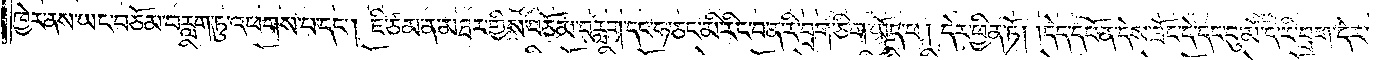ཁྱེར་ནས་ཡང་བཅོམ་བརླག་ཏུ་འཕགས་པ་དང༌། ཇི་ཙམ་ན་མཐར་གྱིས་བཅོམ་བརླག་དང་ཧ་ཅང་མི་རིང་བ་ན་རི་བྲག་ཅིག་ཡོད་པ། དེར་ཕྱིན་ཏོ། །དེད་དཔོན་དེས་ཟོང་དེ་དང་བུ་མོ་དེ་རི་བྲག་དེར་
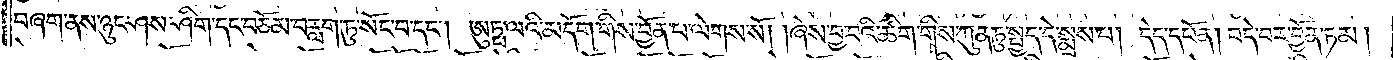བཞག་ནས་ཉུང་ཤས་ཤིག་དང་བཅོམ་བརླག་ཏུ་སོང་བ་དང༌། ཨུཏྤ་ལའི་མདོག་གིས་བྱོན་པ་ལེགས་སོ། །ཞེས་བྱ་བའི་ཚིག་གིས་ཀུན་ཏུ་སྤྱད་དེ་སྨྲས་པ། དེད་དཔོན། བདེ་བར་བྱོན་ཏམ།
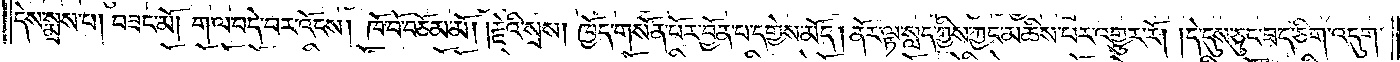དེས་སྨྲས་པ། བཟང་མོ། ག་ལ་བདེ་བར་འོངས། ཁོ་བོ་བཅོམ་མོ། །རྗེའི་སྲས། ཁྱོད་གསོན་པོར་བྱོན་པ་དགྱེས་མོད། ནོར་ལྟ་སླད་ཀྱིས་ཀྱང་མཆིས་པར་འགྱུར་རོ། །དེ་དུས་ཅུང་ཟད་ཅིག་འདུག་
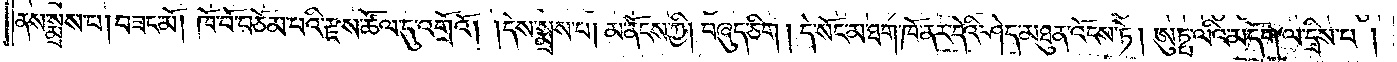ནས་སྨྲས་པ། བཟང་མོ། ཁོ་བོ་བཅོམ་པའི་རྫས་ཚོལ་དུ་འགྲོའོ། །དེས་སྨྲས་པ། མ་ནོངས་ཀྱི། བཞུད་ཅིག ། དེ་སོང་མ་ཐག་ཁོ་ནར་དེའི་ཤེད་མཐུན་འོངས་ཏེ། ཨུཏྤ་ལའི་མདོག་ལ་དྲིས་པ །
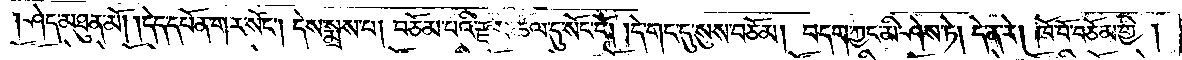།ཤད་མཐུན་མོ། །དེད་དཔོན་གར་སོང༌། དེས་སྨྲས་པ། བཅོམ་པའི་རྫས་ཚོལ་དུ་སོང་ངོ༌། །དེ་གང་དུ་སུས་བཅོམ། བདག་ཀྱང་མི་ཤེས་ཏེ། དེ་ན་རེ། ཁོ་བོ་བཅོམ་གྱི།
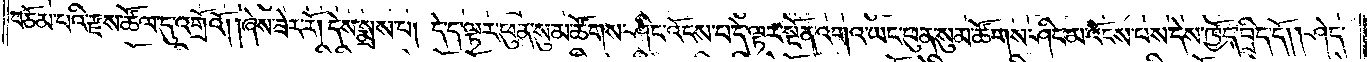བཅོམ་པའི་རྫས་ཚོལ་དུ་འགྲོའོ། །ཞེས་ཟེར་རོ། །དེས་སྨྲས་པ། དེ་ད་ལྟར་ཕུན་སུམ་ཚོགས་ཤིང་འོངས་པ་དེ་ལྟར་སྔོན་འགའ་ཡང་ཕུན་སུམ་ཚོགས་ཤིང་མ་འོངས་པས་དེས་ཁྱོད་བྲིད་དོ། །ཤེད་
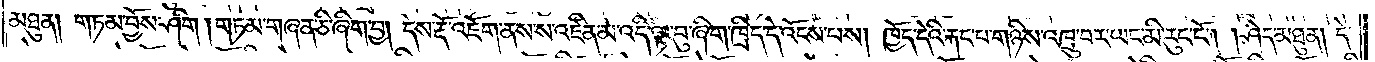མཐུན། གཏམ་བྱོས་ཤིག །གཏམ་གཞན་ཅི་ཞིག་བྱ། དེས་རྡོ་འཇོག་ནས་ས་འཛིན་མ་འདི་ལྟ་བུ་ཞིག་ཁྲིད་དེ་འོངས་པས། ཁྱོད་དེའི་རྐང་པ་གཉིས་འཁྲུ་བར་ཡང་མི་རུང་ངོ༌། །ཤེད་མཐུན། དེ་
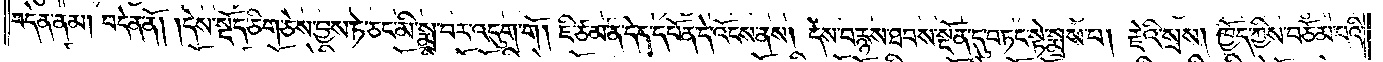བདེན་ནམ། བདེན་ནོ། །དེས་སྡོད་ཅིག་ཅེས་བྱས་ཏེ་ཅང་མི་སྨྲ་བར་འདུག་གོ །ཇི་ཙམ་ན་དེད་དཔོན་དེ་འོངས་ནས། དེས་བརྙས་ཐབས་སྔོན་དུ་བཏང་སྟེ་སྨྲས་པ། རྗེའི་སྲས། ཁྱོད་ཀྱིས་བཅོམ་པའི་
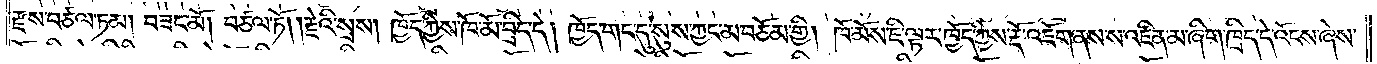རྫས་བཙལ་ཏམ། བཟང་མོ། །བཙལ་ཏོ། །རྗེའི་སྲས། ཁྱོད་ཀྱིས་ཁོ་མོ་བྲིད་དེ། ཁྱོད་གང་དུ་སུས་ཀྱང་མ་བཅོམ་གྱི། ཁོ་མོས་ཇི་ལྟར་ཁྱོད་ཀྱིས་རྡོ་འཇོག་ནས་ས་འཛིན་མ་ཞིག་ཁྲིད་དེ་འོངས་ཞེས་
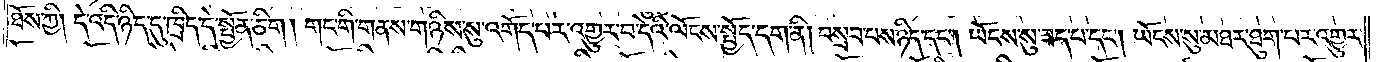ཐོས་ཀྱི། དེ་འདི་ཉིད་དུ་ཁྲིད་དེ་སྤྱོན་ཅིག །གང་གི་གནས་གཉིས་སུ་འགོད་པར་འགྱུར་བ་དེའི་ལོངས་སྤྱོད་དག་ནི། བསྲབ་པས་ཉིད་དང༌། ཡོངས་སུ་ཟད་པ་དང༌། ཡོངས་སུ་མཐར་ཐུག་པར་འགྱུར་
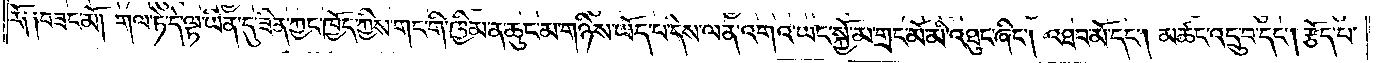རོ༑ ༑བཟང་མོ། །གལ་ཏེ་དེ་ལྟ་ཡིན་དུ་ཟིན་ཀྱང་ཁྱོད་ཀྱིས་གང་གི་ཁྱིམ་ན་ཆུང་མ་གཉིས་ཡོད་པ་དེས་ལན་འགའ་ཡང་སྐྱོ་མ་གྲང་མོ་མི་འཐུང་ཞིང༌། འཐབ་མོ་དང༌། མཚང་འདྲུ་བ་དང༌། རྩོད་པ་
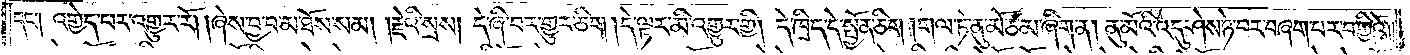དང༌། འགྱེད་པར་འགྱུར་རོ། །ཞེས་བྱ་བ་མ་ཐོས་སམ། །རྗེའི་སྲས། དེ་ཞི་བར་གྱུར་ཅིག །དེ་ལྟར་མི་འགྱུར་གྱི། དེ་ཁྲིད་དེ་སྤྱོན་ཅིག །གལ་ཏེ་ནུ་མོ་ཙམ་ཞིག་ན། ནུ་མོའི་འདུ་ཤེས་ཉེ་བར་བཞག་པར་བགྱིའོ། །
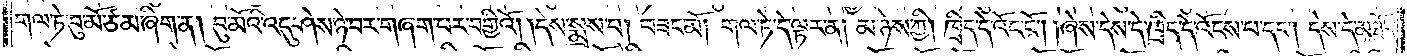གལ་ཏེ་བུ་མོ་ཙམ་ཞིག་ན། བུ་མོའི་འདུ་ཤེས་ཉེ་བར་གཞག་པར་བགྱིའོ། །དེས་སྨྲས་པ། བཟང་མོ། གལ་ཏེ་དེ་ལྟར་ན། མ་ཉེས་ཀྱི། ཁྲིད་དེ་འོང་ངོ༌། །ཞེས་དེས་དེ་ཁྲིད་དེ་འོངས་པ་དང༌། དེས་དེ་མཐོང་
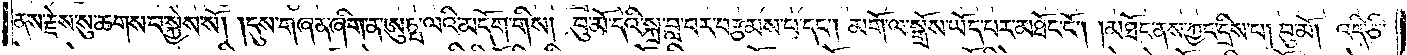ནས་རྗེས་སུ་ཆགས་པ་སྐྱེས་སོ། །དུས་གཞན་ཞིག་ན་ཨུཏྤ་ལའི་མདོག་གིས། བུ་མོ་དེའི་སྐྲ་བླ་བར་བརྩམས་པ་དང༌། མགོ་ལ་སྒྲོས་ཡོད་པར་མཐོང་ངོ༌། །མཐོང་ནས་ཀྱང་དྲིས་པ། བུ་མོ། འདི་ཅི་
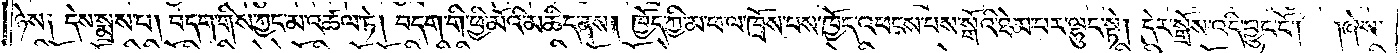ཉེས༑ དེས་སྨྲས་པ། བདག་གིས་ཀྱང་མ་འཚལ་ཏེ། བདག་གི་ཕྱི་མོའི་མཆིད་ནས། ཁྱོད་ཀྱི་མ་ཕ་ལ་ཁྲོས་པས་ཁྱོད་འཕངས་པས་སྒོའི་ཐེམ་པར་ལྷུང་སྟེ། དེར་སྒྲོས་འདི་བྱུང་ངོ༌། །ཞེས་
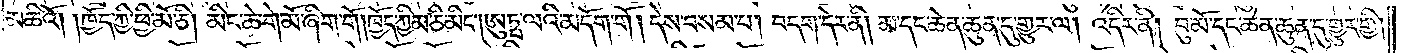མཆིའོ། །ཁྱོད་ཀྱི་ཕྱི་མོ་ཅི། མིང་ཆེ་གེ་མོ་ཞིག་གོ །ཁྱོད་ཀྱི་མ་ཅི་མིང༌། ཨུཏྤ་ལའི་མདོག་གོ །དེས་བསམ་པ། བདག་དེར་ནི། མ་དང་ཆེན་ཆུན་དུ་གྱུར་ལ། འདིར་ནི། བུ་མོ་དང་ཆེན་ཆུན་དུ་གྱུར་གྱི།
